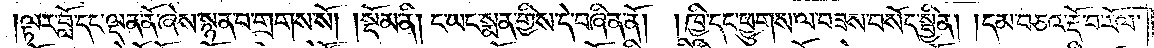ལྟར་བློ་དང་ལྡན་ནོ་ཞེས་སྙན་བ་གྲགས་སོ། །སྡོམ་ནི། ང་ཡང་སྨན་གྱིས་དེ་བཞིན་ནོ། །ཁྱི་དང་ཕྱུགས་ལ་བཟས་བསོད་སྦྱིན། །དམ་བཅའ་རྡོ་བ་རོལ་
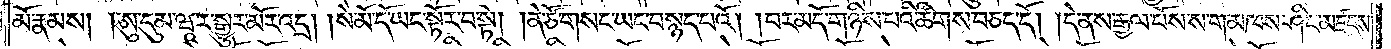མོ་རྣམས། །ཨུ་དུམ་ཝཱ་ར་སྒྱུར་མོར་འདྲ། །སེ་མོ་དོ་ཡང་སྟོར་བ་སྟེ། །ནེ་ཙོ་གསང་ཡང་བསྙད་པའོ། །བར་མདོ་གཉིས་པའི་ཚིགས་བཅད་དོ། །དེ་ནས་རྒྱལ་པོས་ས་ག་མཁས་ཤིང་མཛངས་
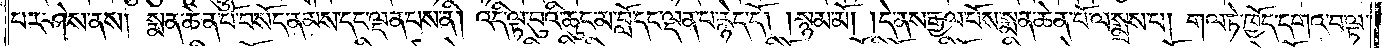པར་ཤེས་ནས། སྨན་ཆེན་པོ་བསོད་ནམས་དང་ལྡན་པས་ནི། འདི་ལྟ་བུའི་ཆུང་མ་བློ་དང་ལྡན་པ་རྙེད་དོ། །སྙམ་མོ། །དེ་ནས་རྒྱལ་པོས་སྨན་ཆེན་པོ་ལ་སྨྲས་པ། གལ་ཏེ་ཁྱོད་དགའ་བ་ལྟ་
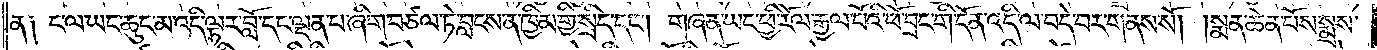ན༑ ང་ལ་ཡང་ཆུང་མ་འདི་ལྟར་བློ་དང་ལྡན་པ་ཞིག་བཙལ་ཏེ་བླངས་ན་ཁྱིམ་གྱི་སྲིད་དང༌། གཞན་ཡང་ཕྱི་རོལ་རྒྱལ་པོའི་ཕོ་བྲང་གི་དོན་འདི་ལ་བདེ་བར་གནས་སོ། །སྨན་ཆེན་པོས་སྨྲས་
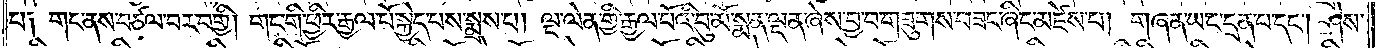པ༑ གང་ནས་བཙལ་བར་བགྱི། གང་གི་ཕྱིར་རྒྱལ་པོ་སྐྱེད་པས་སྨྲས་པ། ལྔ་ལེན་གྱི་རྒྱལ་པོའི་བུ་མོ་སྨན་ལྡན་ཞེས་བྱ་བ་གཟུགས་བཟང་ཞིང་མཛེས་པ། གཞན་ཡང་དྲན་པ་དང༌། ཤེས་
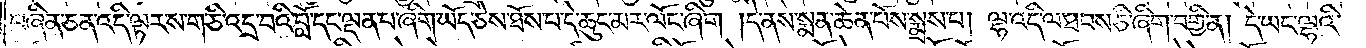བཞིན་ཅན་འདི་ལྟར་ས་གཅི་འདྲ་བའི་བློ་དང་ལྡན་པ་ཞིག་ཡོད་ཅེས་ཐོས་པ་དེ་ཆུང་མར་ལོང་ཞིག །དེ་ནས་སྨན་ཆེན་པོས་སྨྲས་པ། ལྷ་འདི་ལ་ཐབས་ཅི་ཞིག་བགྱི་ན། དེ་ཡང་ལྷའི་
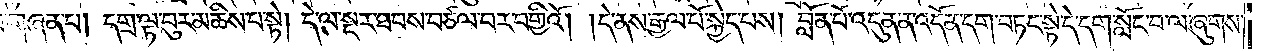མཚམས་ལས་གཞན་པ། དགྲ་ལྟ་བུར་མཆིས་པ་སྟེ། དེ་ལ་སྔར་ཐབས་བཙལ་བར་བགྱིའོ། །དེ་ནས་རྒྱལ་པོ་སྐྱེད་པས། བློན་པོ་འདུན་ན་འདོན་དག་བཏང་སྟེ་དེ་དག་སློང་བ་ལ་ཞུགས་
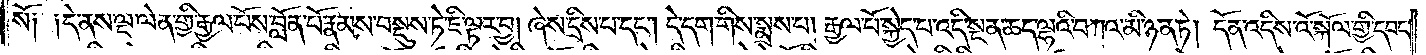སོ༑ ༑དེ་ནས་ལྔ་ལེན་གྱི་རྒྱལ་པོས་བློན་པོ་རྣམས་བསྡུས་ཏེ་ཇི་ལྟར་བྱ། ཞེས་དྲིས་པ་དང༌། དེ་དག་གིས་སྨྲས་པ། རྒྱལ་པོ་སྐྱེད་པ་འདི་སྔན་ཆད་ལྷའི་བཀའ་མི་ཉན་ཏེ། དོན་འདིས་འོ་སྐོལ་གྱི་དབང་
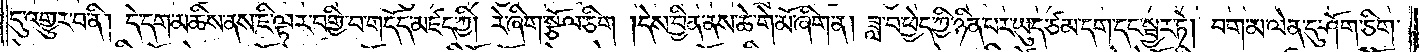དུ་འགྱུར་བ་ནི། དེ་དག་མཆིས་ནས་ཇི་ལྟར་བགྱི་བ་གདོད་མཛད་ཀྱི། རེ་ཞིག་སྩོལ་ཅིག །དེས་བྱིན་ནས་ཆེ་གེ་མོ་ཞིག་ན། ཟླ་བ་ཕྱེད་ཀྱི་ཉིན་བར་ཡུད་ཙམ་དག་དང་སྦྱར་ཏེ། བག་མ་ལེན་དུ་ཤོག་ཅིག་
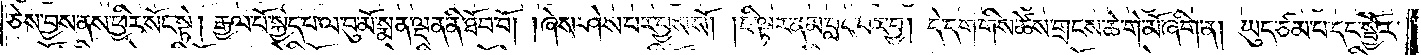ཅེས་བྱས་ནས་ཕྱིར་སོང་སྟེ། རྒྱལ་པོ་སྐྱེད་པ་ལ་བུ་མོ་སྨན་ལྡན་ནི་ཐོབ་བོ། །ཞེས་ཤེས་པར་བྱས་སོ། །ཇི་ལྟར་ནམ་བླང་བར་བྱ། དེ་དག་གིས་ཚེས་གྲངས་ཆེ་གེ་མོ་ཞིག་ན། ཡུད་ཙམ་པ་དང་སྦྱོར་
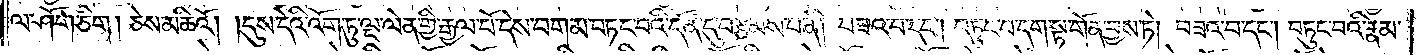ལ་ཤོག་ཅིག །ཅེས་མཆིའོ། །དུས་དེའི་འོག་ཏུ་ལྔ་ལེན་གྱི་རྒྱལ་པོ་དེས་བག་མ་བཏང་བའི་དོན་དུ་བརྩམས་པ་ནི། བཟའ་བ་དང༌། བཏུང་བ་དག་སྟ་གོན་བྱས་ཏེ། བཟའ་བ་དང༌། བཏུང་བའི་རྣམ་
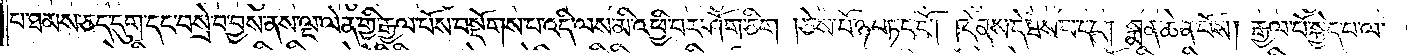པ་ཐམས་ཅད་དུག་དང་བསྲེ་བ་བྱས་ནས་ལྔ་ལེན་གྱི་རྒྱལ་པོས་བསྡོགས་པ་འདི་ལས་མི་འཕྱི་བར་ཤོག་ཅིག །ཅེས་ཕོ་ཉ་བཏང་ངོ༌། །དེ་ནས་དེ་ཐོས་པ་དང༌། སྨན་ཆེན་པོས། རྒྱལ་པོ་སྐྱེད་པ་ལ་
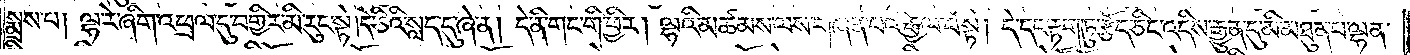སྨྲས་པ། ལྷ་རེ་ཞིག་འཕྲལ་དུ་བགྱིར་མི་རུང་སྟེ། དེ་ཅིའི་སླད་དུ་ཞེ་ན། དེ་ནི་གང་གི་ཕྱིར། ལྷའི་མཚམས་ལས་གཞན་པའི་རྒྱལ་པོ་སྟེ། དེ་དང་རྟག་ཏུ་རྩོད་ཅིང་འདིས་རྒྱུན་དུ་མི་མཐུན་པ་ལྷན་
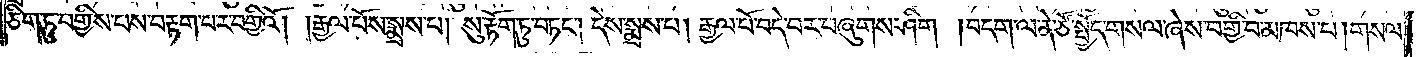ཅིག་ཏུ་བགྱིས་པས་བརྟག་པར་བགྱིའོ། །རྒྱལ་པོས་སྨྲས་པ། སུ་རྟོག་ཏུ་བཏང༌། དེས་སྨྲས་པ། རྒྱལ་པོ་བདེ་བར་བཞུགས་ཤིག །བདག་ལ་ནེ་ཙོ་སྤྱོད་གསལ་ཞེས་བགྱི་བ་མཁས་པ། གསལ་
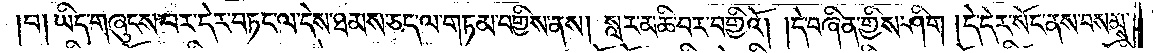བ། ཡིད་གཞུངས་པར་དེར་བཏང་ལ་དེས་ཐམས་ཅད་ལ་གཏམ་བགྱིས་ནས། སླར་མཆི་བར་བགྱིའོ། །དེ་བཞིན་གྱིས་ཤིག །དེ་དེར་སོང་ནས་བསམས་
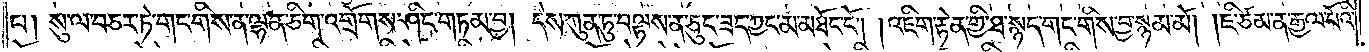པ། སུ་ལ་བཅར་ཏེ་གང་གིས་ན་ལྷན་ཅིག་འགྲོགས་ཤིང་གཏམ་བྱ། དེས་ཀུན་ཏུ་བལྟས་ན་ཅུང་ཟད་ཀྱང་མ་མཐོང་ངོ༌། །འཇིག་རྟེན་གྱི་ཐ་སྙད་གང་གིས་བྱ་སྙམ་མོ། །ཇི་ཙམ་ན་རྒྱལ་པོའི་
